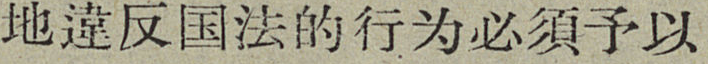地違反国法的行为必須予以
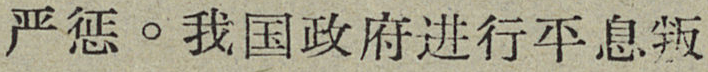严惩。我国政府进行平息叛
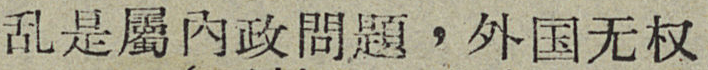乱是屬內政問題，外国无权
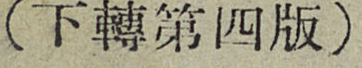（下轉第四版）
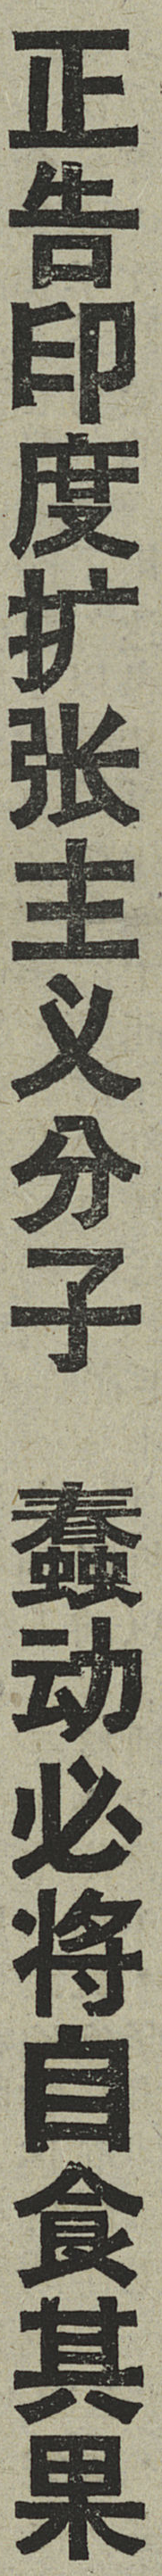正告印度扩张主义分子 蠢动必将自食其果
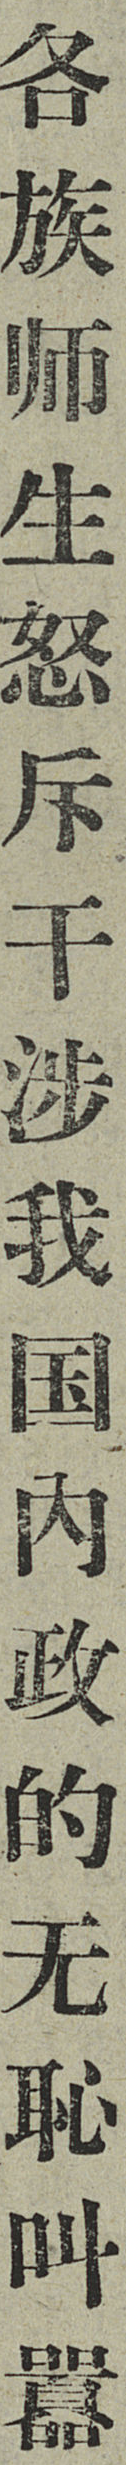各族师生怒斥干涉我国内政的无恥叫囂
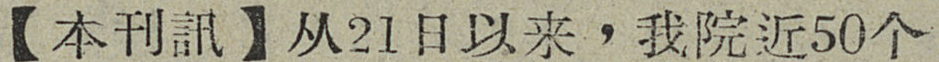【本刊訊】从21日以来，我院近50各
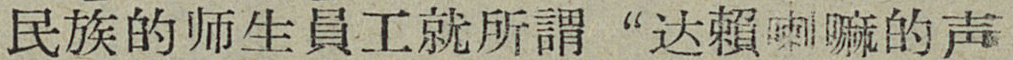民族的师生員工就所謂“达賴喇嘛的声
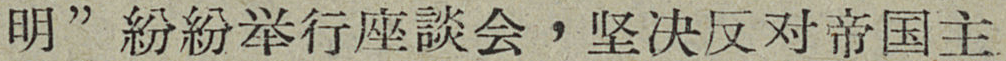明”紛紛举行座談会，坚决反对帝国主
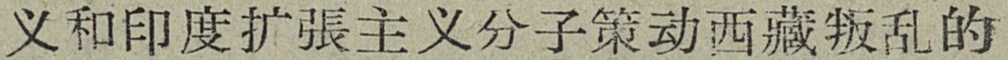义和印度扩張主义分子策动西藏叛乱的
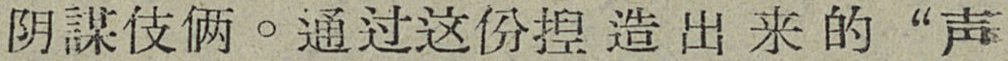阴謀伎俩。通过这份捏造出来的“声
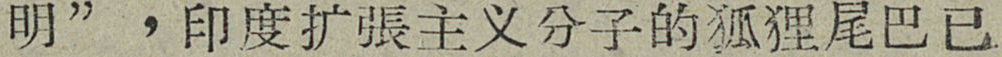明”，印度扩張主义分子的狐狸尾巴已
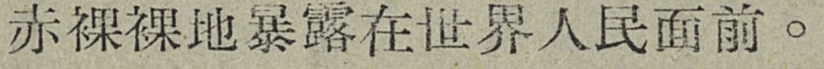赤裸裸地暴露在世界人民面前。
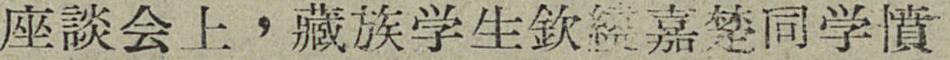座談会上，藏族学生欽繞嘉楚同学憤
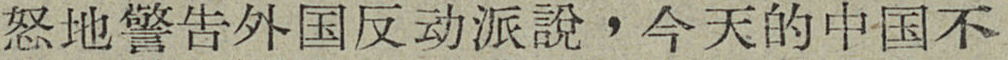怒地警告外国反动派說，今天的中国不
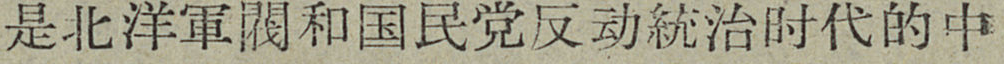是北洋軍閥和国民党反动統治时代的中
